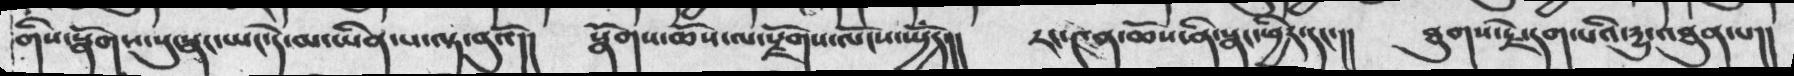གིས་སྣོགས་སུ་སྣང་ཡང་དེ་མ་ཡིན་པ་ལྟ་བུའོ།།  སྣོགས་ཆོས་ལ་རྫོགས་ལོངས་སྤྱོད།།  རང་༤ན་ཆོས་ནི་སྣང་ཕྱིར་དང་།། ཐུགས་རྗེ་དག་པའི་དྱུ་འཐུན་པ།།
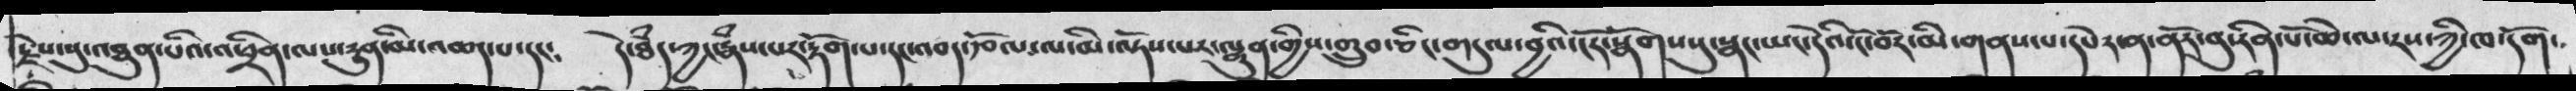རྗེས་སུ་འཐུན་པའི་འཕྲིན་ལས་དྱུན་མི་འཆད་པ་དང༴  དེ་ཐཾད་ཀྱང་རྣཾས་པར་རྟོག་པ་དང་འབད་རྩོལ་ལ་མི་ལྟོས་པར་ལྷུན་གྱིས་གྲུབ་ཅིང་གདུལ་བྱའི་ངོར་སྣོགསསུ་སྣང་ཡང་དེའི་ངོ་བོར་མི་གནས་པ་དཔེར་ན་ནོར་བུ་རིན་པོ་ཆེ་ལ་རས་ཀྱི་ཁ་དོག་
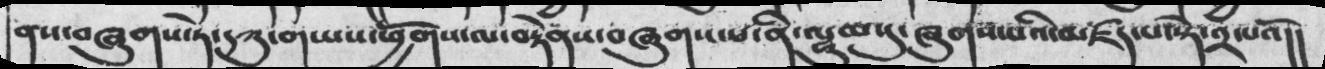ནས་བཞུགས་ཏེ་དཀུ་གཡས་ཕྱོགས་ལ་བརྟེནས་བཞུགས་པ་ནི་ལྷུམསུ་ཞུགས་པའི་མཛད་པ་སྟེ་༢་པའོ།།
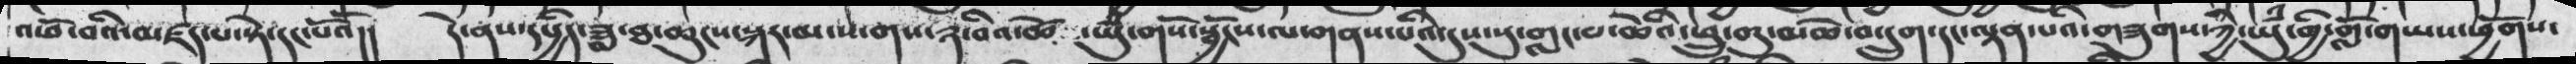འཕོ་བའི་མཛད་པ་སྟེ་དང་པོའོ།།  དེ་ནས་དཔྱིད་ཟླ་ཐ་ཆུངས་སྐར་མ་ས་གས་ཉ་བའི་ཚེ ་ཡུཾ་གསོ་སྦྱོངས་ལ་གནས་པའི་དུས་སུ་གླང་པ་ཆེའི་ཕྲུ་གུ་མཆེ་བ་དྲུག་དང་ལྡན་པའི་གཟུགས་ཀྱི་ཡུཾ་གྱི་གློ་གཡས་ཕྱོགས་
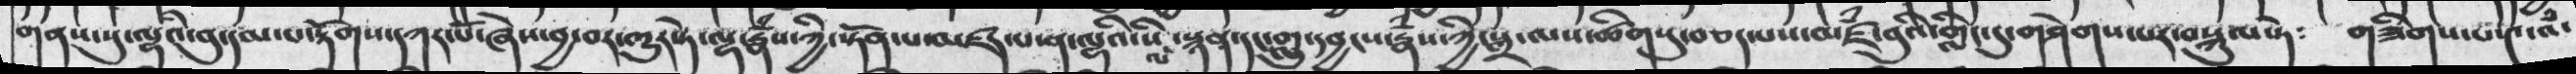གནས་སུ་ལྷའི་བུ་དམ་པ་རྟོགས་དཀར་པོ་ཞེས་བྱ་བར་གྱུར་ཏེ་ལྷ་རྣཾས་ཀྱི་སྟོན་པ་མཛད་པ་ན་ལྷའི་སིལ་སྙན་དང་གླུ་དབྱངས་རྣཾས་ཀྱི་སྒྲ་ལས་ཚིགསུ་བཅད་པས་མཛཾ་བུའི་གླིང་དུ་གཤེགས་པར་བསྐུལ་ཏེ༴  གཟིགས་པ་༤་འཾ་
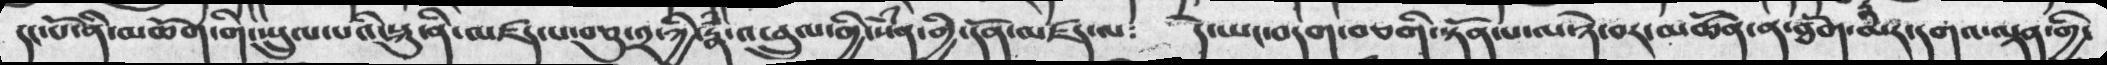དང་པོ་ནི་མཆོག་གི་སྤྲུལ་པའི་སྐུ་ནི་མཛད་པ་བཅུ་༢་ཀྱི་རྣཾ་འཕྲུལ་གྱི་སེཾན་གྱི་དོན་མཛད་ལ༴  དེ་ཡང་བདག་བཅགི་སྟོན་པ་ལ་ཉེ་བར་མཚོན་ན་ཐོག་མར་དགའ་ལྡན་གྱི་
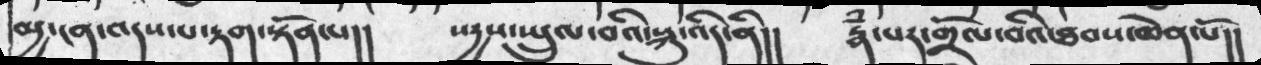མྱ་ངན་འདས་པ་རྟག་སྟོན་པ།།  སདྱས་སྤྲུལ་བའི་སྐུ་འདི་ནི།།  རྣཾ་པར་གྲོལ་བའི་ཐབས་ཆེན་པོ།།
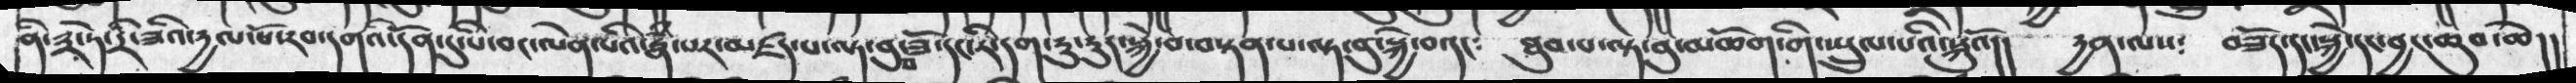ནི་༣་ཏེ་དྲི་ཟའི་དྱལ་པོ་རབ་དགའི་དོན་དུ་པི་བང་ལེན་པའི་རྣཾ་པར་མཛད་པ་ལྟ་བུ་བཟོ་དང་རི་དག་རུ་རུད་སྐྱེ་བ་བསྟན་པ་ལྟ་བུ་སྐྱེ་བ་དང༴   ཐུབ་པ་ལྟ་བུ་མཆོག་གི་སྤྲུལ་པའི་སྐུའོ།།  དྱན་ལས༴   བཟོད་དང་སྐྱེ་དང་བྱང་ཆུབ་ཆེ།།
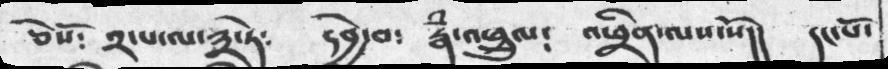ཅེསོ༴  ༢་པ་ལ་༣་ཏེ༴  དབྱེ་བ༴  རྣཾ་འཕྲུལ༴  འཕྲིན་ལས་སོ།།  དང་པོ་
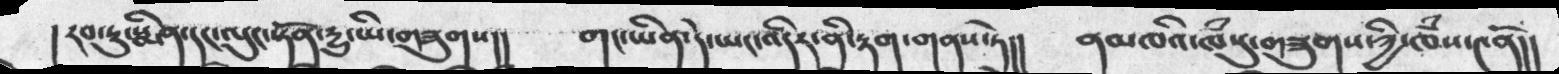།རབ་ཏུ་སྨིན་དང་ལུང་སྟོན་དྱུ་ཡི་གཟུགས།།  གང་ཡིན་དེ་ཡང་འདིར་ནི་རྟག་གནས་ཏེ།།  ནམཁའི་ཁཾསུ་གཟུགས་ཀྱི་ཁཾས་༤ནོ།།
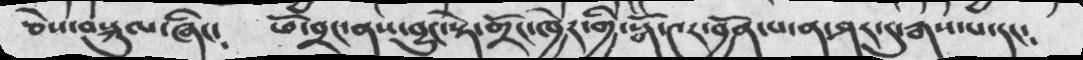ཅེས་བསྐུལ་ཞིང་ ཕོ་བྲང་ནས་བྱུང་སྟེ་གྲོང་ཁྱེར་གྱི་སྒོ་༤ར་བྱོན་པ་ན་ཤར་དུ་རྒས་པ་དང༴
